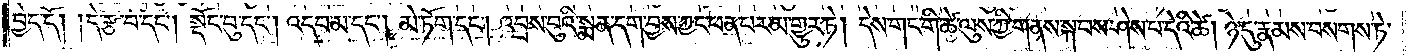བྱེད་དོ། །དེ་རྩ་བ་དང༌། སྡོང་བུ་དང༌། འདབ་མ་དང༌། མེ་ཏོག་དང༌། འབྲས་བུའི་སྨན་དག་བྱས་ཀྱང་ཕན་པར་མ་གྱུར་ཏེ། དེས་གང་གི་ཚེ་ལུས་ཀྱི་གནས་སྐབས་ཤེས་པ་དེའི་ཚེ། ཉེ་དུ་རྣམས་བསགས་ཏེ་
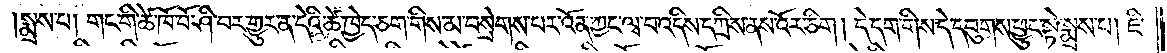སྨྲས་པ། གང་གི་ཚེ་ཁོ་བོ་ཤི་བར་གྱུར་ན་དེའི་ཚེ་ཁྱེད་ཅག་གིས་མ་བསྲེགས་པར་འོན་ཀྱང་ལྭ་བ་འདིས་དཀྲིས་ནས་འོར་ཅིག། དེ་དག་གིས་དེ་དབུགས་ཕྱུང་སྟེ་སྨྲས་པ། ཇི་
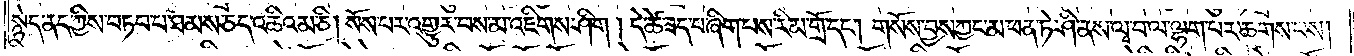སྙེད་ནད་ཀྱིས་བཏབ་པ་ཐམས་ཅད་འཆིའམ་ཅི། སོས་པར་འགྱུར་བས་མ་འཇིགས་ཤིག ། དེ་ཚེ་ཟད་པ་ཞིག་པས་རིམ་གྲོ་དང༌། གསོས་བྱས་ཀྱང་མ་ཕན་ཏེ་ཤི་ནས་ལྭ་བ་ལ་ལྷག་པར་ཆགས་པས།
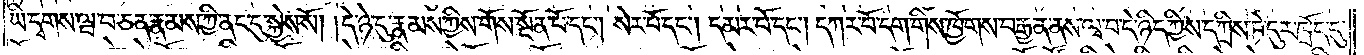ཡི་དྭགས་ཝ་བ་ཅན་རྣམས་ཀྱི་ནང་དུ་སྐྱེས་སོ། །དེ་ཉེ་དུ་རྣམས་ཀྱིས་གོས་སྔོན་པོ་དང༌། སེར་པོ་དང༌། དམར་པོ་དང༌། དཀར་པོ་དག་གིས་ཁྱོགས་བརྒྱན་ནས་ལྭ་བ་དེ་ཉིད་ཀྱིས་དཀྲིས་ཏེ་དུར་ཁྲོད་དུ་
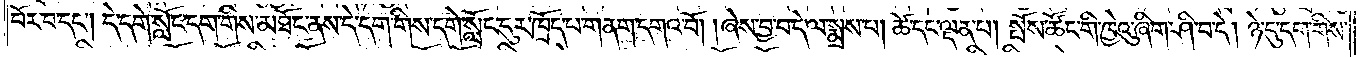བོར་བ་དང༌། དེ་དགེ་སློང་དག་གིས་མཐོང་ནས་དེ་དག་གིས་དགེ་སློང་དུར་ཁྲོད་པ་གནག་དགའ་བོ། །ཞེས་བྱ་བ་དེ་ལ་སྨྲས་པ། ཚེ་དང་ལྡན་པ། སྤོས་ཚོང་གི་ཁྱེའུ་ཞིག་ཤི་བ་དེ། ཉེ་དུ་དག་གིས་
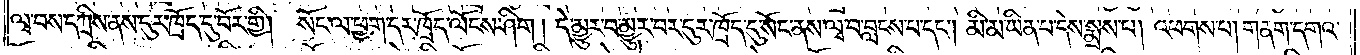ལྭ་བས་དཀྲིས་ནས་དུར་ཁྲོད་དུ་བོར་གྱི། སོང་ལ་ཕྱག་དར་ཁྲོད་ལོངས་ཤིག། དེ་མྱུར་བ་མྱུར་བར་དུར་ཁྲོད་དུ་སོང་ནས་ལྭ་བ་བླངས་པ་དང༌། མི་མ་ཡིན་པ་དེས་སྨྲས་པ། འཕགས་པ། གནག་དགའ་
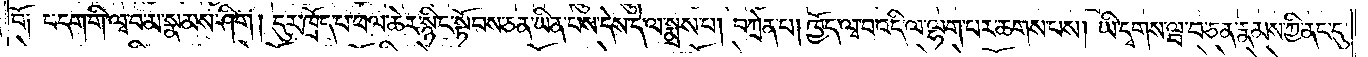བོ། བདག་གི་ལྭ་བ་མ་སྣམས་ཤིག། དུར་ཁྲོད་པ་ཕལ་ཆེར་སྙིང་སྟོབས་ཅན་ཡིན་པས་དེས་དེ་ལ་སྨྲས་པ། བཀྲེན་པ། ཁྱོད་ལྭ་བ་འདི་ལ་ལྷག་པར་ཆགས་པས། ཡི་དྭགས་ཝ་བ་ཅན་རྣམས་ཀྱི་ནང་དུ་
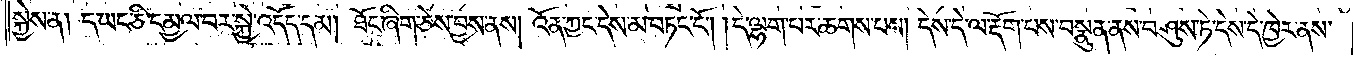སྐྱེས་ན། ད་ཡང་ཅི་དམྱལ་བར་སྐྱེ་འདོད་དམ། ཐོང་ཞིག་ཅེས་བྱས་ནས། འོན་ཀྱང་དེས་མ་བཏང་ངོ༌། །དེ་ལྷག་པར་ཆགས་པས། དེས་དེ་ལ་རྡོག་པས་བསྣུན་ནས་བཤུས་ཏེ་དེས་དེ་ཁྱེར་ནས་
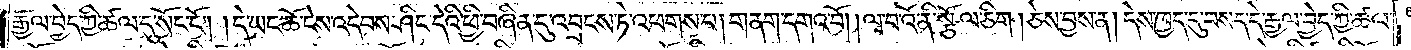རྒྱལ་བྱེད་ཀྱི་ཚལ་དུ་སོང་ངོ༌། །དེ་ཡང་ཆོ་ངེས་འདེབས་ཤིང་དེའི་ཕྱི་བཞིན་དུ་འབྲངས་ཏེ་འཕགས་པ། གནག་དགའ་བོ། །ལྭ་བ་འོ་ནི་སྩོལ་ཅིག། ཅེས་བྱས་ན། དེ་ཁྱད་དུ་བསད་དེ་རྒྱལ་བྱེད་ཀྱི་ཚལ་
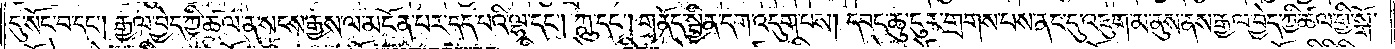དུ་སོང་བ་དང༌། རྒྱལ་བྱེད་ཀྱི་ཚལ་ན་སངས་རྒྱས་ལ་མངོན་པར་དད་པའི་ལྷ་དང༌། ཀླུ་དང༌། གནོད་སྦྱིན་དག་འདུག་པས། དབང་ཆུ་ངུར་གགས་པས་ནང་དུ་འཇུག་མ་ནུས་ནས་རྒྱལ་བྱེད་ཀྱི་ཚལ་གྱི་སྒོ་
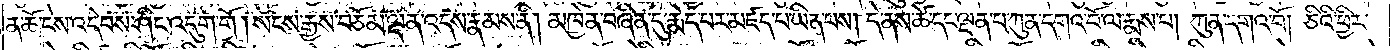ན་ཆོ་ངེས་འདེབས་ཤིང་འདུག་གོ། སངས་རྒྱས་བཅོམ་ལྡན་འདས་རྣམས་ནི། མཁྱེན་བཞིན་དུ་རྨེད་པར་མཛད་པ་ཡིན་པས། དེ་ནས་ཚེ་དང་ལྡན་པ་ཀུན་དགའ་བོ་ལ་རྨས་པ། ཀུན་དགའ་བོ། ཅིའི་ཕྱིར་
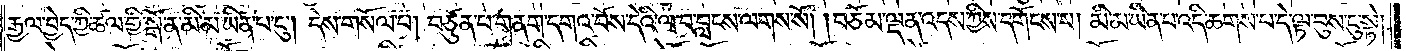རྒྱལ་བྱེད་ཀྱི་ཚལ་གྱི་སྒོ་ན་མི་མ་ཡིན་པ་ངུ༌། དེས་གསོལ་པ། བཙུན་པ་གནག་དགའ་བོས་དེའི་ལྭ་བ་བླངས་ལགས་སོ། །བཅོམ་ལྡན་འདས་ཀྱིས་དགོངས་པ། མི་མ་ཡིན་པ་འདི་ཆགས་པ་དེ་ལྟ་བུས་ངུ་སྟེ།
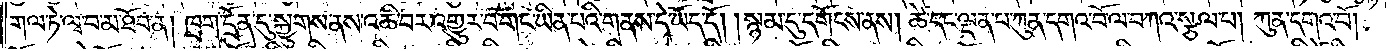གལ་ཏེ་ལྭ་བ་མ་ཐོབ་ན། ཁྲག་དྲོན་དུ་སྐྱུགས་ནས་འཆི་བར་འགྱུར་བ་གང་ཡིན་པའི་གནས་དེ་ཡོད་དོ། །སྙམ་དུ་དགོངས་ནས། ཚེ་དང་ལྡན་པ་ཀུན་དགའ་བོ་ལ་བཀའ་སྩལ་པ། ཀུན་དགའ་བོ།
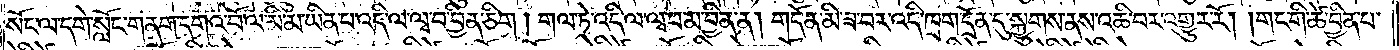སོང་ལ་དགེ་སློང་གནག་དགའ་བོ་ལ་མི་མ་ཡིན་པ་འདི་ལ་ལྭ་བ་བྱིན་ཅིག། གལ་ཏེ་འདི་ལ་ལྭ་བ་མ་བྱིན་ན། གདོན་མི་ཟ་བར་འདི་ཁྲག་དྲོན་དུ་སྐྱུགས་ནས་འཆི་བར་འགྱུར་རོ། །གང་གི་ཚེ་བྱིན་པ་
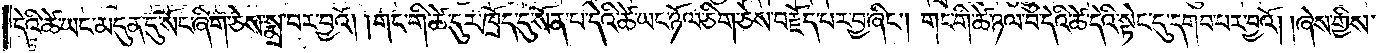དེའི་ཚེ་ཡང་མདུན་དུ་སོང་ཞིག་ཅེས་སྨྲ་བར་བྱའོ། །གང་གི་ཚེ་དུར་ཁྲོད་དུ་སོན་པ་དེའི་ཚེ་ཡང་ཉོལ་ཅིག་ཅེས་བརྗོད་པར་བྱ་ཞིང༌། གང་གི་ཚེ་ཉལ་བ་དེའི་ཚེ་དེའི་སྟེང་དུ་དགབ་པར་བྱའོ། །ཞེས་གྱིས་
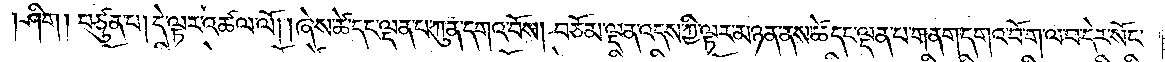ཤིག། བཙུན་པ། དེ་ལྟར་འཚལ་ལོ། །ཞེས་ཚེ་དང་ལྡན་པ་ཀུན་དགའ་བོས། བཅོམ་ལྡན་འདས་ཀྱི་ལྟར་མཉན་ནས་ཚེ་དང་ལྡན་པ་གནག་དགའ་བོ་ག་ལ་བ་དེར་སོང་
